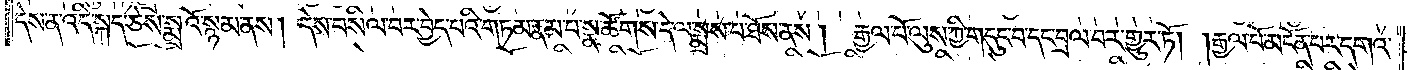དེས་ན་འདི་སྐད་ཅེས་སྨྲའོ་སྙམ་ནས། དེས་བསིལ་བར་བྱེད་པའི་གཏམ་རྣམ་པ་སྣ་ཚོགས་དེ་ལ་སྨྲས་པ་ཐོས་ནས། རྒྱལ་པོ་ལུས་ཀྱི་གདུང་བ་དང་བྲལ་བར་འགྱུར་ཏོ། །རྒྱལ་པོ་མངོན་པར་དགའ་
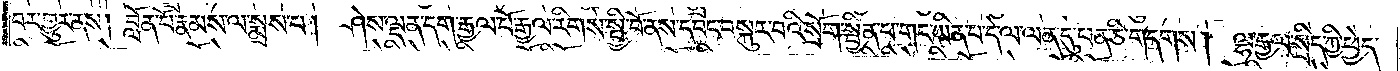བར་གྱུར་ནས། བློན་པོ་རྣམས་ལ་སྨྲས་པ། ཤེས་ལྡན་དག་རྒྱལ་པོ་རྒྱལ་རིགས་སྤྱི་བོ་ནས་དབང་བསྐུར་བའི་སྲོག་སྦྱིན་པ་གང་ཡིན་པ་དེ་ལ་ལན་དུ་ཕན་ཅི་གདགས། ལྷ་རྒྱལ་སྲིད་ཀྱི་ཕྱེད་
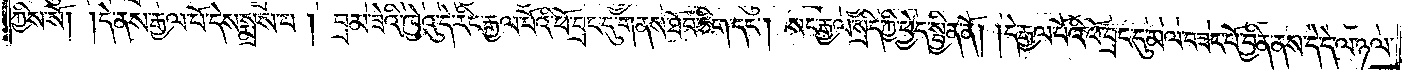ཀྱིས་སོ། །དེ་ནས་རྒྱལ་པོ་དེས་སྨྲས་པ། བྲམ་ཟེའི་ཁྱེའུ་དེ་རིང་རྒྱལ་པོའི་ཕོ་བྲང་དུ་གནས་ཐོབ་ཅིག་དང༌། སང་རྒྱལ་སྲིད་ཀྱི་ཕྱེད་སྦྱིན་ནོ། །དེ་རྒྱལ་པོའི་ཕོ་བྲང་དུ་མལ་བཟང་པོ་བྱིན་ནས་དེ་དེ་ལ་ཉལ་
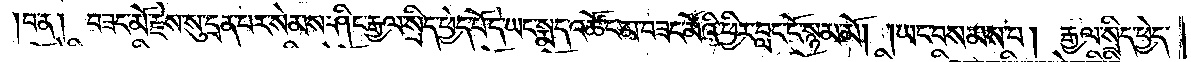།བ་ན། བཟང་མོ་རྗེས་སུ་དྲན་པར་སེམས་ཤིང་རྒྱལ་སྲིད་ཕྱེད་པོ་དེ་ཡང་སྨད་འཚོང་མ་བཟང་མོའི་ཕྱིར་བླང་ངོ་སྙམ་མོ། །ཡང་བསམས་པ།  རྒྱལ་སྲིད་ཕྱེད་
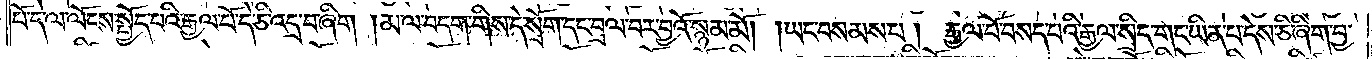པོ་དེ་ལ་ལོངས་སྤྱོད་པའི་རྒྱལ་པོ་དེ་ཅི་འདྲ་བ་ཞིག །མ་ལ་བདག་གིས་དེ་སྲོག་དང་བྲལ་བར་བྱའོ་སྙམ་མོ། །ཡང་བསམས་པ། རྒྱལ་པོ་བསད་པའི་རྒྱལ་སྲིད་གང་ཡིན་པ་དེས་ཅི་ཞིག་བྱ་
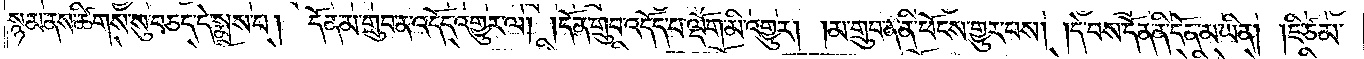སྙམ་ནས་ཚིགས་སུ་བཅད་དེ་སྨྲས་པ། དོན་མ་གྲུབ་ན་འདོད་འགྱུར་ལ། །དོན་གྲུབ་འདོད་པ་ལྡོག་མི་འགྱུར། །མ་གྲུབ་ན་ནི་ཕོངས་གྱུར་པས། །དེ་བས་དོན་ནི་དོན་མ་ཡིན། །ཇི་ཙམ་
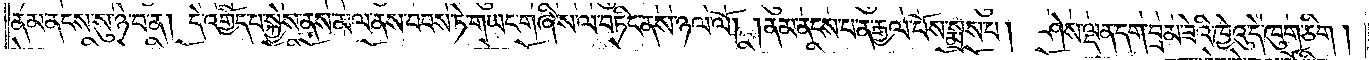ནམ་ནངས་སུ་ཉེ་བ་ན། དེ་འགྱོད་པ་སྐྱེས་ནས་མལ་ནས་བབས་ཏེ་གཡང་གཞིས་ལ་བཏིང་ནས་ཉལ་ལོ། །ནམ་ནངས་པ་ན་རྒྱལ་པོས་སྨྲས་པ། ཤེས་ལྡན་དག་བྲམ་ཟེའི་ཁྱེའུ་དེ་ཁུག་ཅིག །
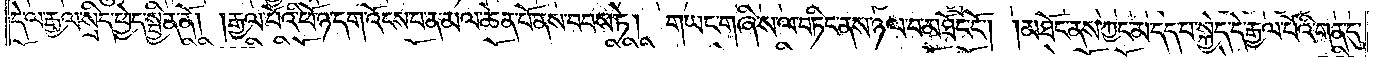དེ་ལ་རྒྱལ་སྲིད་ཕྱེད་སྦྱིན་ནོ། །རྒྱལ་པོའི་ཕོ་ཉ་དག་འོངས་པ་ན་མལ་ཆེན་པོ་ནས་བབས་ཏེ། གཡང་གཞི་ས་ལ་བཏིང་ནས་ཉལ་བ་མཐོང་ངོ༌། །མཐོང་ནས་ཀྱང་མ་དད་པ་སྐྱེད་དེ་རྒྱལ་པོའི་གན་དུ་
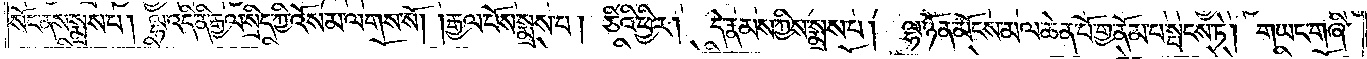སོང་ནས་སྨྲས་པ། ལྷ་འདི་ནི་རྒྱལ་སྲིད་ཀྱི་འོས་མ་ལགས་སོ། །རྒྱལ་པོས་སྨྲས་པ། ཅིའི་ཕྱིར། དེ་རྣམས་ཀྱིས་སྨྲས་པ།  ལྷ་ཉོན་མོངས་མལ་ཆེན་པོ་གྱ་ནོམ་པ་སྤངས་ཏེ། གཡང་གཞི་
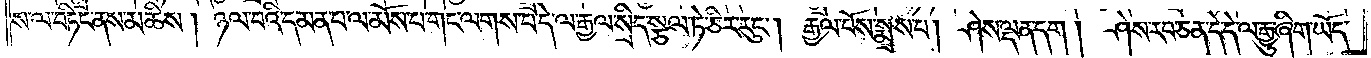ས་ལ་བཏིང་ནས་མཆིས། ཉལ་བའི་དམན་པ་ལ་མོས་པ་གང་ལགས་པ་དེ་ལ་རྒྱལ་སྲིད་སྩལ་ཏེ་ཅིར་རུང༌། རྒྱལ་པོས་སྨྲས་པ། ཤེས་ལྡན་དག །ཤེས་རབ་ཅན་དེ་དེ་ལ་རྒྱུ་ཞིག་ཡོད་
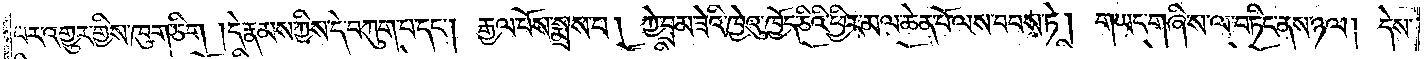བར་འགྱུར་གྱིས་ཁུག་ཅིག །དེ་རྣམས་ཀྱིས་དེ་བཀུག་པ་དང༌། རྒྱལ་པོས་སྨྲས་པ། ཀྱེ་བྲམ་ཟེའི་ཁྱེའུ་ཁྱོད་ཅིའི་ཕྱིར་མལ་ཆེན་པོ་ལས་བབས་ཏེ། གཡང་གཞི་ས་ལ་བཏིང་ནས་ཉལ། དེས་
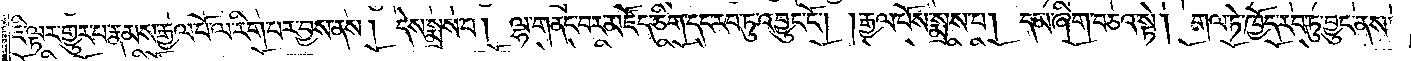ཇི་ལྟར་གྱུར་པ་རྣམས་རྒྱལ་པོ་ལ་རིག་པར་བྱས་ནས། དེ་སྨྲས་པ། ལྷ་གནང་བར་མཛོད་ཅིག་དང་རབ་ཏུ་འབྱུང་ངོ༌། །རྒྱལ་པོས་སྨྲས་པ། དམ་ཞིག་བཅའ་སྟེ། གལ་ཏེ་ཁྱོད་རབ་ཏུ་བྱུང་ནས་
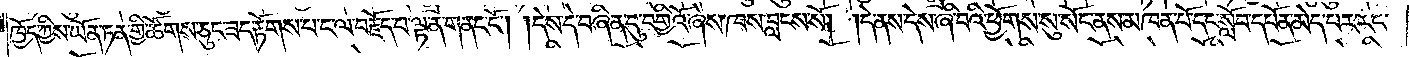ཁྱོད་ཀྱིས་ཡོན་ཏན་གྱི་ཚོགས་ཅུང་ཟད་རྟོགས་པ་ང་ལ་བརྗོད་པ་ལྟ་ན་གནང་ངོ༌། །དེས་དེ་བཞིན་དུ་བགྱིའོ་ཞེས་ཁས་བླངས་སོ། །དེ་ནས་དེས་ཞི་བའི་ཕྱོགས་སུ་སོང་ནས་མཁན་པོ་དང་སློབ་དཔོན་མེད་པར་རང་
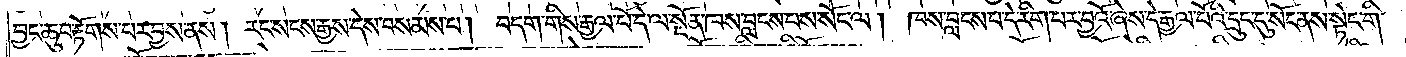བྱང་ཆུབ་རྟོགས་པར་བྱས་ན། རང་སངས་རྒྱས་དེས་བསམས་པ། བདག་གིས་རྒྱལ་པོ་དེ་ལ་སྔོན་ཁས་བླངས་པས་སོང་ལ། ཁས་བླངས་པ་དེ་རིག་པར་བྱའོ་ཞེས་དེ་རྒྱལ་པོའི་དྲུང་དུ་སོང་ནས་སྟེང་གི་
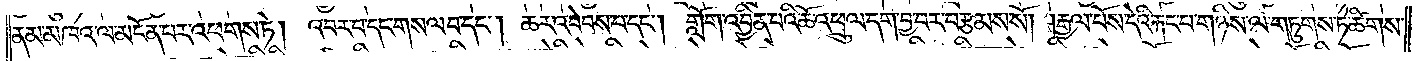ནམ་མཁའ་ལ་མངོན་པར་འཕགས་ཏེ། འབར་བ་དང་གསལ་བ་དང༌། ཆར་འབེབས་པ་དང༌། གློག་འབྱིན་པའི་ཆོ་འཕྲུལ་དག་བྱ་བར་བརྩམས་སོ། །རྒྱལ་པོས་དེའི་རྐང་པ་གཉིས་ལ་གཏུགས་ཏེ་ཚིགས་
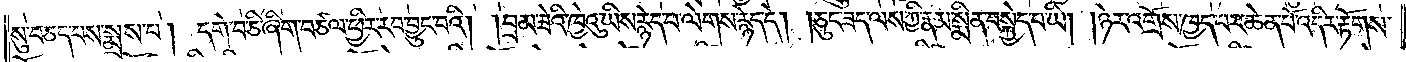སུ་བཅད་པས་སྨྲས་པ། དགེ་བ་ཅི་ཞིག་བཙལ་ཕྱིར་རབ་བྱུང་བའི། །བྲམ་ཟེའི་ཁྱེའུ་ཡིས་རྙེད་པ་ལེགས་རྙེད་དེ། །ཅུང་ཟད་ལས་ཀྱི་རྣམ་སྨིན་བསྐྱེད་པ་ཡི། །ཉེར་འགྲོས་ཁྱད་པར་ཆེན་པོ་འདིར་རྟོགས་
